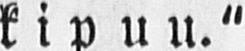kipuu."
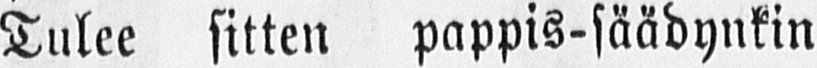Tulee sitten pappis-säädynkin
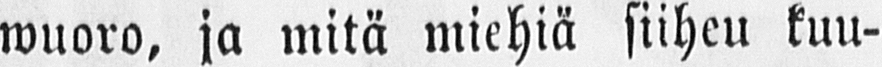wuoro, ja mitä miehiä siiheu kuu-
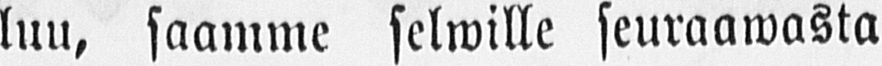luu, saamme selwille seuraawasta
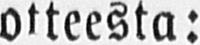otteesta:
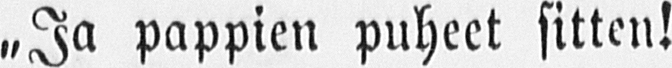„Ja pappien puheet sitten!
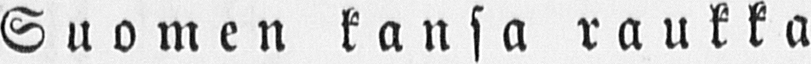Suomen kansa raukka
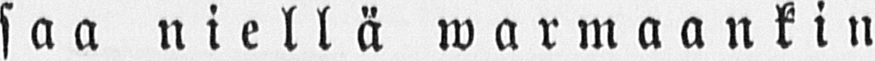saa niellä warmaankin
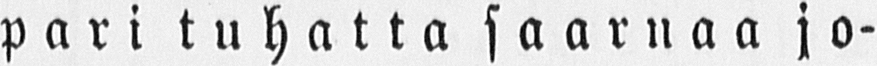pari tuhatta saarnaa jo-
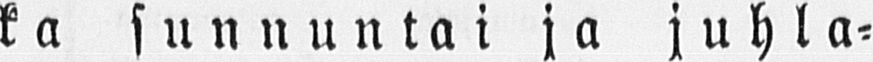ka sunnuntai ja juhla-
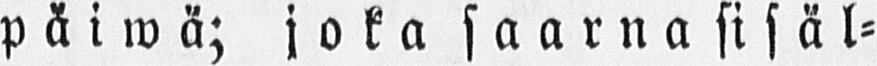päiwä; joka saarna sisäl-
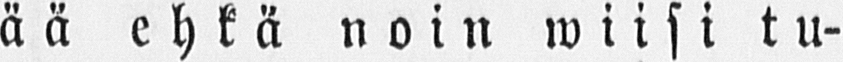tää ehkä noin wiisi tu-
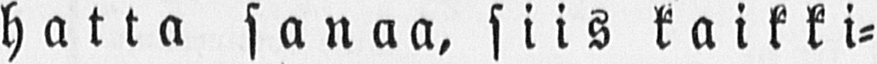hatta sanaa, siis kaikki-
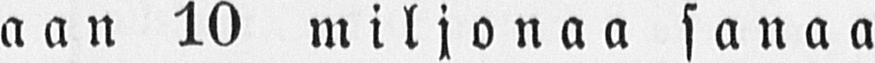aan 10 miljonaa sanaa
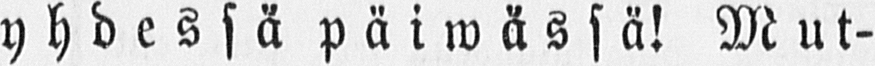yhdessä päiwässä! Mut-
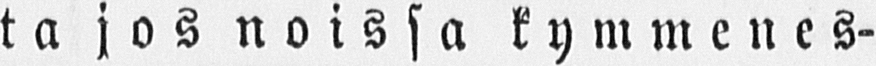ta jos noissa kymmenes-
